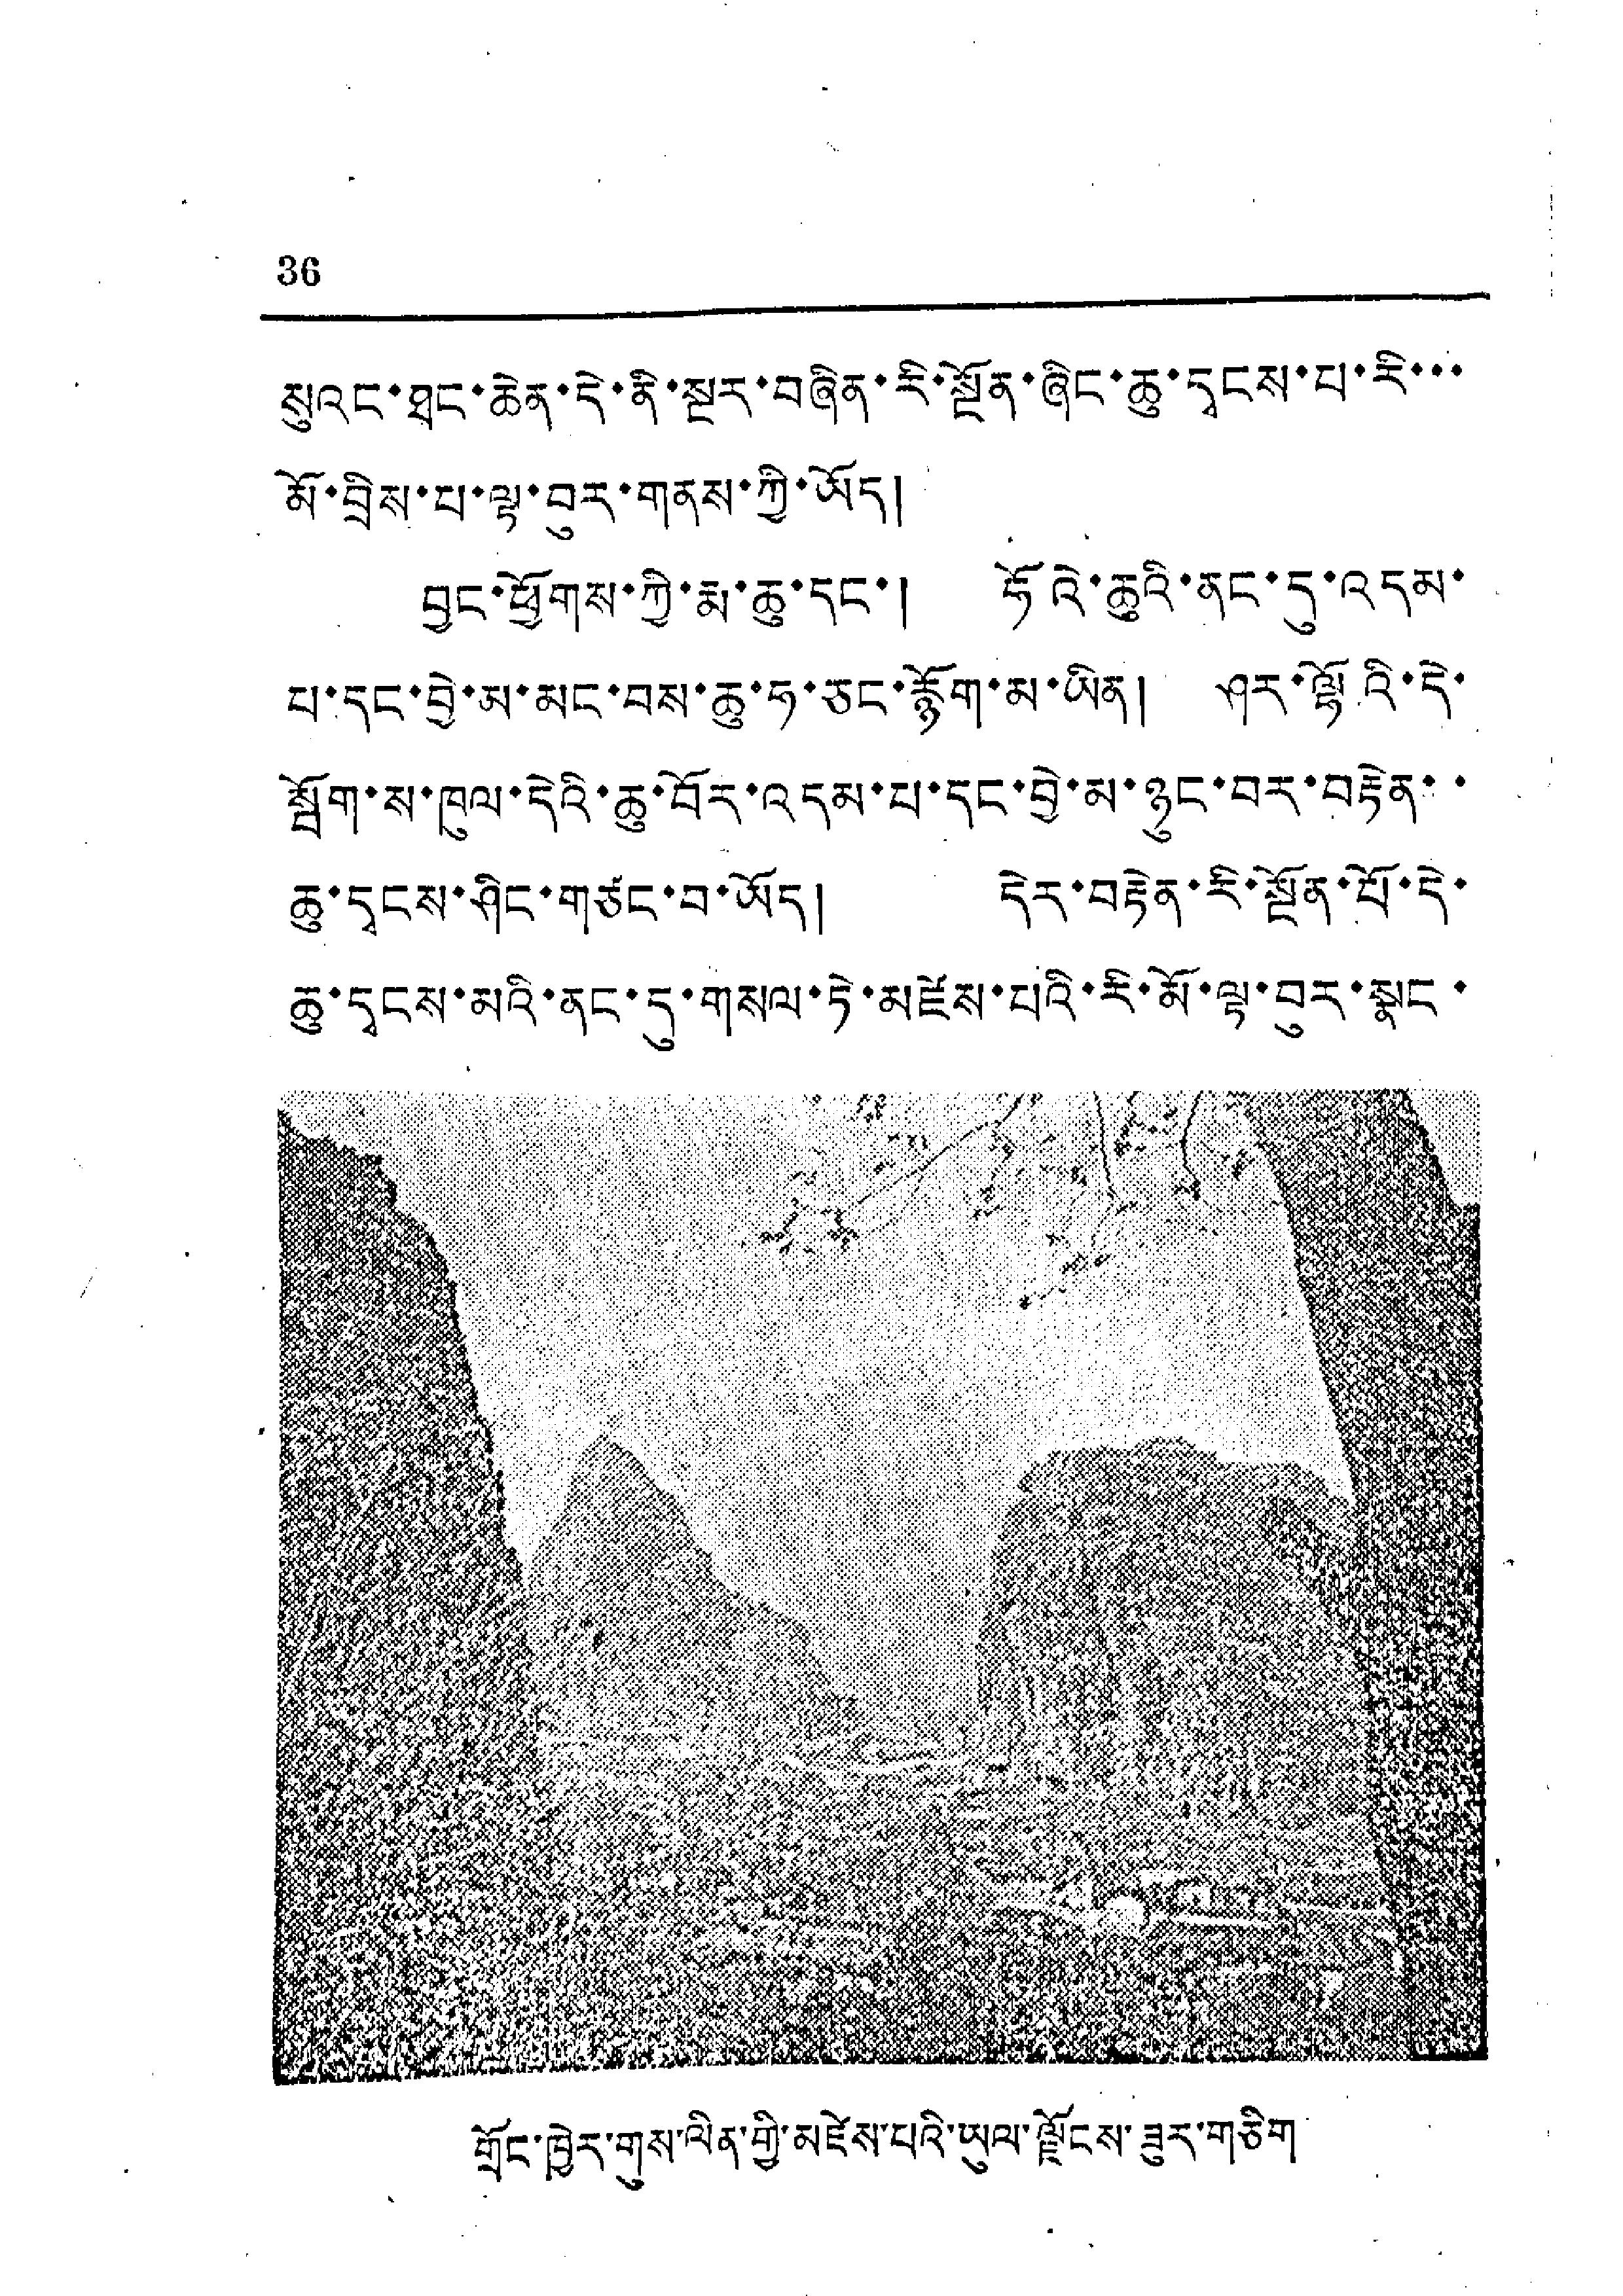36
སུའང་ཐང་ཆེན་དེ་ནི་སྔར་བཞིན་རི་སྔོན་ཞིང་ཆུ་དྭངས་པ་རི་་་
མོ་བྲིས་པ་ལྟ་བུར་གནས་ཀྱི་ཡོད།
བྱང་ཕྱོགས་ཀྱི་རྨ་ཆུ་དང་། ཧོའེ་ཆུའི་ནང་དུ་འདམ་
པ་དང་བྱེ་མ་མང་བས་ཆུ་ཧ་ཅང་རྙོག་མ་ཡིན། ཤར་ལྷོའི་དེ་
སྦོག་ས་ཁུལ་དེའི་ཆུ་བོར་འདམ་པ་དང་བྱེ་མ་ཉུང་བར་བརྟན་་
ཆུ་དྭངས་ཤིང་གཙང་བ་ཡོད། དེར་བརྟེན་རི་སྔོན་པོ་དེ་
ཆུ་དྭངས་མའི་ནང་དུ་གསལ་ཏེ་མཛེས་པའི་རི་མོ་ལྟ་བུར་སྣང་
གྲོང་ཁྱེར་གུས་ལིན་གྱི་མཛེས་པའི་ཡུལ་ལྗོངས་ཟུར་གཅིག་
